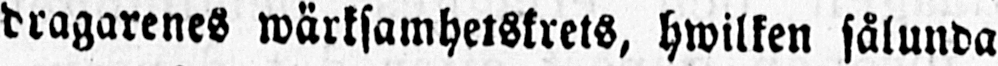dragarenes wärksamhetskrets, hwilken sålunda re-
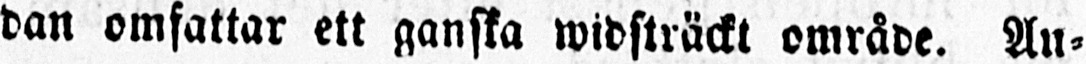dan omfattar ett ganska widsträckt område. An-
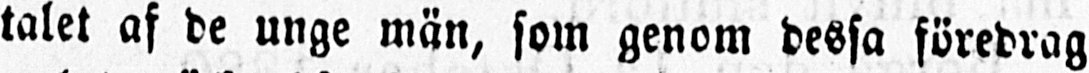talet af de unge män, som genom dessa föredrag
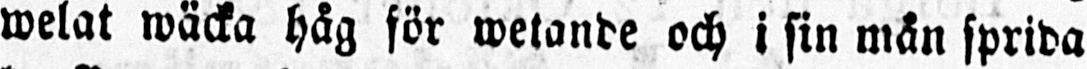welat wäcka håg för wetande och i sin mån sprida
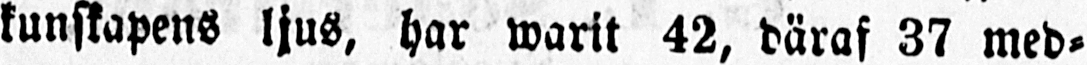kunskapens ljus, har warit 42, däraf 37 med-
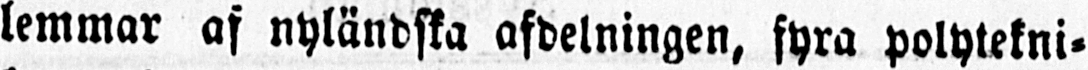lemmar af nyländska afdelningen, fyra polytekni-
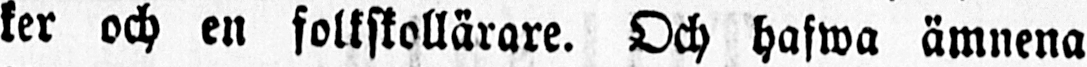ker och en folkskollärare. Och hafwa ämnena
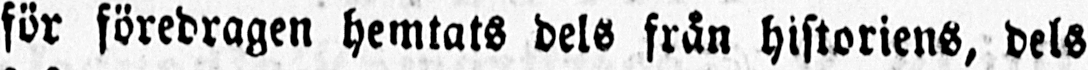för föredragen hemtats dels från historiens, dels
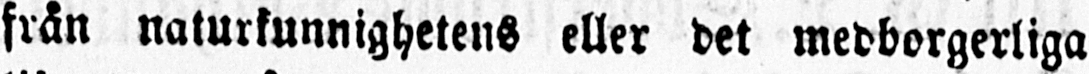från naturkunnighetens eller det medborgerliga
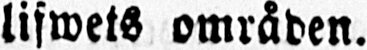lifwets områden.
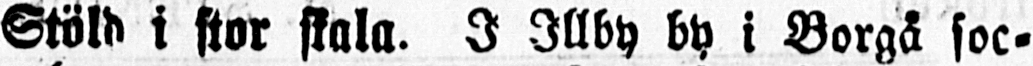Stöld i stor skala. I Illby by i Borgå soc-
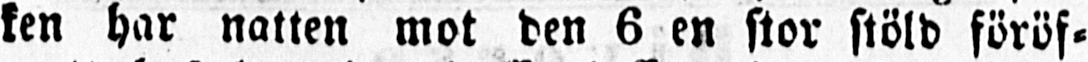ken har natten mot den 6 en stor stöld föröf-
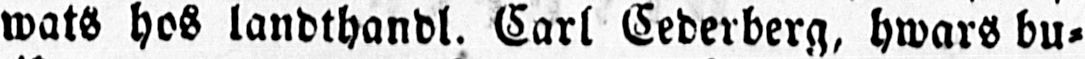wats hos landthandl. Carl Cederberg, hwars bu-
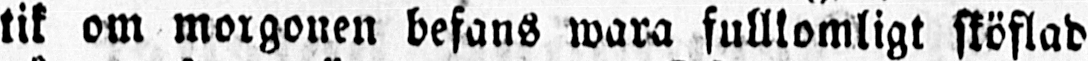tik om morgonen befans wara fullkomligt sköflad
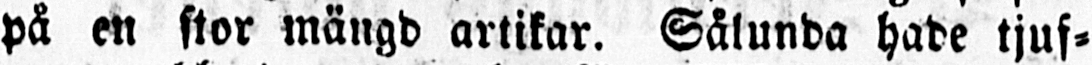på en stor mängd artikar. Sålunda hade tjuf-
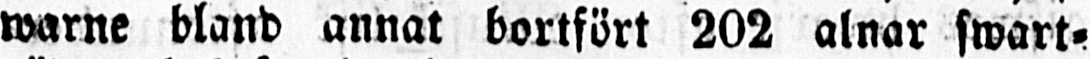warne bland annat bortfört 202 alnar swart-
